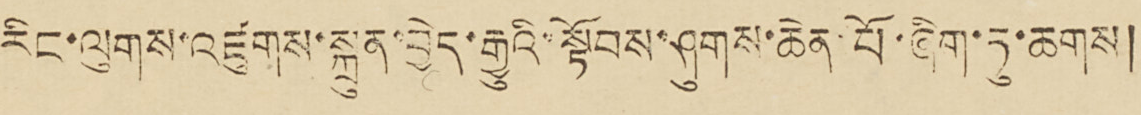རིང་ལུགས་འཛུགས་སྐྲུན་བྱེད་རྒྱུའི་སྟོབས་ཤུགས་ཆེན་པོ་ཞིག་ཏུ་ཆགས།
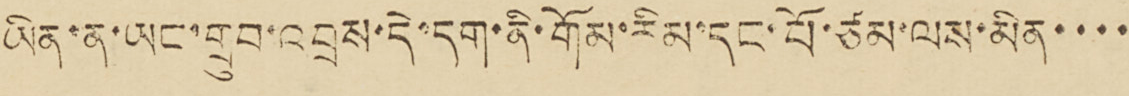ཡིན་ན་ཡང་གྲུབ་འབྲས་དེ་དག་ནི་གོམ་རིམ་དང་པོ་ཙམ་ལས་མིན་་་་
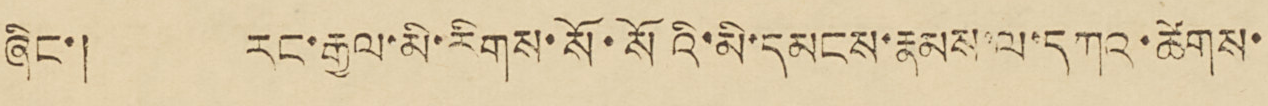ཞིང་། རང་རྒྱལ་མི་རིགས་སོ་སོའི་མི་དམངས་རྣམས་ལ་དཀའ་ཚེགས་
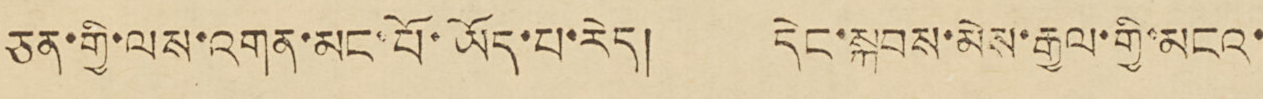ཅན་གྱི་ལས་འགན་མང་པོ་ཡོད་པ་རེད། དེང་སྐབས་མེས་རྒྱལ་གྱི་མངའ་
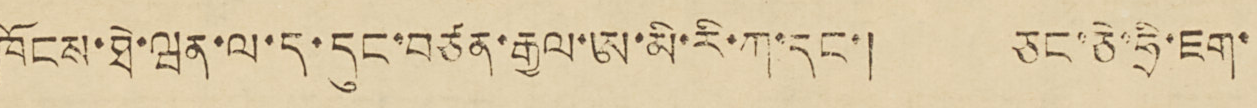ཁོངས་ཐེ་ཝན་ལ་ད་དུང་བཙན་རྒྱལ་ཨ་མི་རི་ཀ་དང་། ཅང་ཅེ་ཧྲི་ཇག་
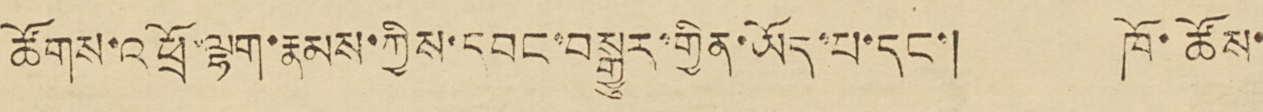ཚོགས་འཕྲོ་ལྷག་རྣམས་ཀྱིས་དབང་བསྒྱུར་གྱིན་ཡོད་པ་དང་། ཁོ་ཚོས་
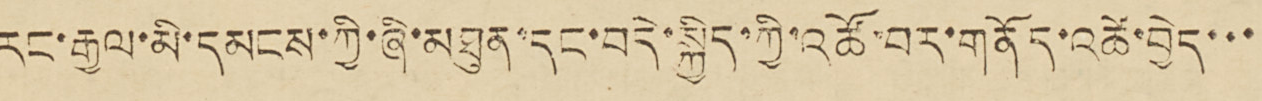རང་རྒྱལ་མི་དམངས་ཀྱི་ཞི་མཐུན་དང་བདེ་སྐྱིད་ཀྱི་འཚོ་བར་གནོད་འཚེ་བྱེད་་་
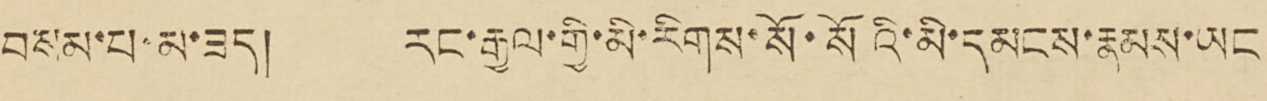བསམ་པ་མ་ཟད། རང་རྒྱལ་གྱི་མི་རིགས་སོ་སོའི་མི་དམངས་རྣམས་ཡང
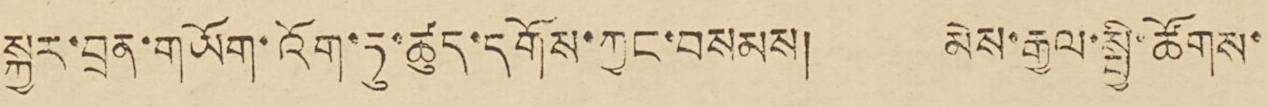སྐྱར་བྲན་གཡོག་འོག་ཏུ་ཚུད་དགོས་ཀྱང་བསམས། མེས་རྒྱལ་སྤྱི་ཚོགས་
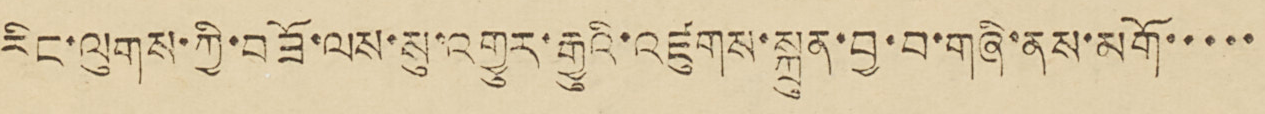རིང་ལུགས་ཀྱི་བཟོ་ལས་སུ་འགྱུར་རྒྱུའི་འཛུགས་སྐྲུན་བྱ་བ་གཞི་ནས་མགོ་་་་་
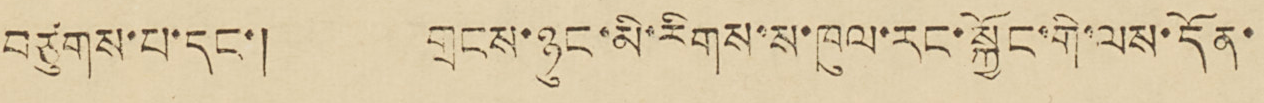བཙུགས་པ་དང་། གྲངས་ཉུང་མི་རིགས་ས་ཁུལ་རང་སྐྱོང་གི་ལས་དོན་
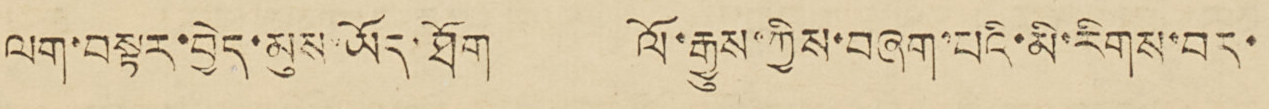ལག་བསྟར་བྱེད་མུས་ཡོད་ཐོག ལོ་རྒྱུས་ཀྱིས་བཞག་པའི་མི་རིགས་བར་
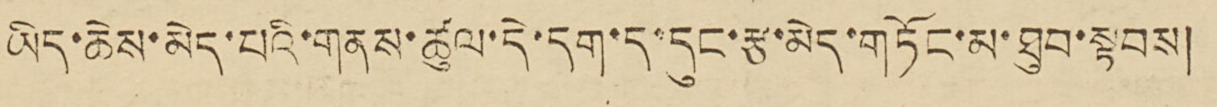ཡིད་ཆེས་མེད་པའི་གནས་ཚུལ་དེ་དག་ད་དུང་རྩ་མེད་གཏོང་མ་ཐུབ་སྟབས།
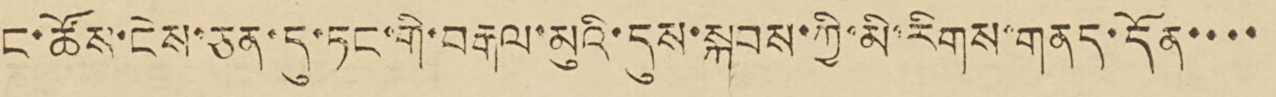ང་ཚོས་ངེས་ཅན་དུ་ཏང་གི་བརྒལ་མུའི་དུས་སྐབས་ཀྱི་མི་རིགས་གནད་དོན་་་་
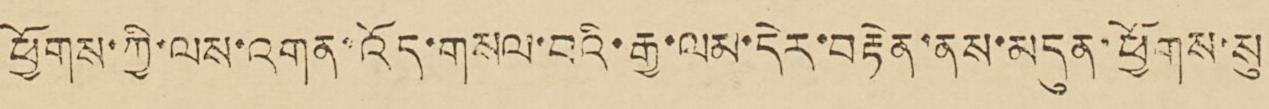ཕྱོགས་ཀྱི་ལས་འགན་འོད་གསལ་བའི་རྒྱ་ལམ་དེར་བརྟེན་ནས་མདུན་ཕྱོགས་སུ
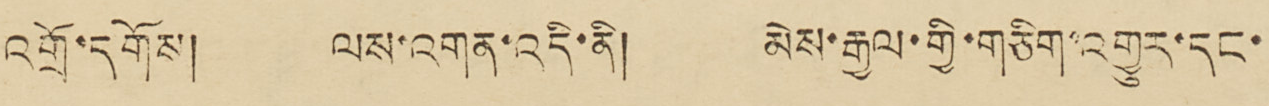འགྲོ་དགོས། ལས་འགན་འདི་ནི། མེས་རྒྱལ་གྱི་གཅིག་འགྱུར་དང་
